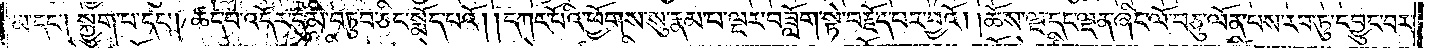མ་དང༌། སྐྱུག་པ་དང༌། ཚད་པ་འདོར་དུ་མི་བཏུབ་ཅིང་སྨོད་པའོ། །དཀར་པོའི་ཕྱོགས་སུ་རྣམ་པ་ལྔར་བཟློག་སྟེ་བརྗོད་པར་བྱའོ། །ཆོས་ལྔ་དང་ལྡན་ཞིང་ལོ་བཅུ་ལོན་པས་རབ་ཏུ་དབྱུང་བར་
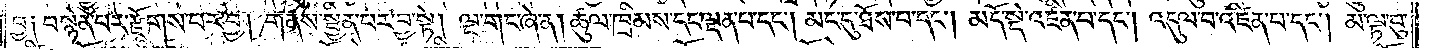བྱ༑ བསྙེན་པར་རྫོགས་པར་བྱ། གནས་སྦྱིན་པར་བྱ་སྟེ། ལྔ་གང་ཞེ་ན། ཚུལ་ཁྲིམས་དང་ལྡན་པ་དང༌། མང་དུ་ཐོས་པ་དང༌། མདོ་སྡེ་འཛིན་པ་དང༌། འདུལ་བ་འཛིན་པ་དང༌། མ་ལྟ་བུ་
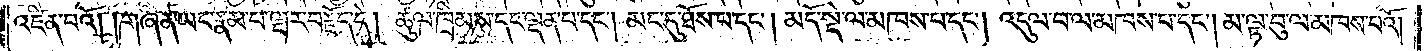འཛིན་པའོ། །གཞན་ཡང་རྣམ་པ་ལྔར་བརྗོད་དེ། ཚུལ་ཁྲིམས་དང་ལྡན་པ་དང༌། མང་དུ་ཐོས་པ་དང༌། མདོ་སྡེ་ལ་མཁས་པ་དང༌། འདུལ་བ་ལ་མཁས་པ་དང༌། མ་ལྟ་བུ་ལ་མཁས་པའོ། །
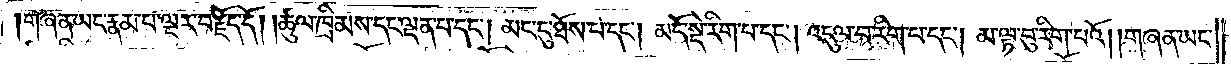གཞན་ཡང་རྣམ་པ་ལྔར་བརྗོད་དོ། །ཚུལ་ཁྲིམས་དང་ལྡན་པ་དང༌། མང་དུ་ཐོས་པ་དང༌། མདོ་སྡེ་རིག་པ་དང༌། འདུལ་བ་རིག་པ་དང༌། མ་ལྟ་བུ་རིག་པའོ། །གཞན་ཡང་
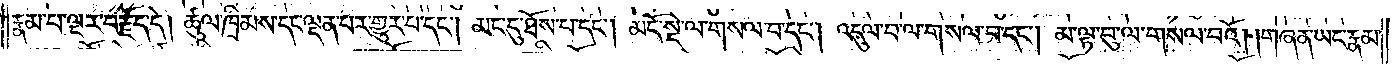རྣམ་པ་ལྔར་བརྗོད་དེ། ཚུལ་ཁྲིམས་དང་ལྡན་པར་གྱུར་པ་དང༌། མང་དུ་ཐོས་པ་དང༌། མདོ་སྡེ་ལ་གསལ་བ་དང༌། འདུལ་བ་ལ་གསལ་བ་དང༌། མ་ལྟ་བུ་ལ་གསལ་བའོ། །གཞན་ཡང་རྣམ་
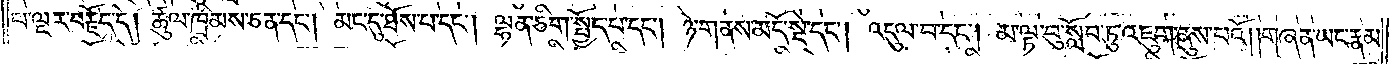པ་ལྔར་བརྗོད་དེ། ཚུལ་ཁྲིམས་ཅན་དང༌། མང་དུ་ཐོས་པ་དང༌། ལྷན་ཅིག་སྤྱོད་པ་དང༌། ཉེ་གནས་མདོ་སྡེ་དང༌། འདུལ་བ་དང༌། མ་ལྟ་བུ་སློབ་ཏུ་འཇུག་ནུས་པའོ། །གཞན་ཡང་རྣམ་
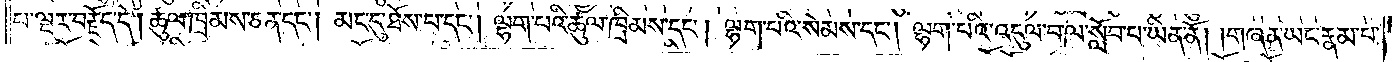པ་ལྔར་བརྗོད་དེ། ཚུལ་ཁྲིམས་ཅན་དང༌། མང་དུ་ཐོས་པ་དང༌། ལྷག་པའི་ཚུལ་ཁྲིམས་དང༌། ལྷག་པའི་སེམས་དང༌། ལྷག་པའི་འདུལ་བ་ལ་སློབ་པ་ཡིན་ནོ། །གཞན་ཡང་རྣམ་པ་
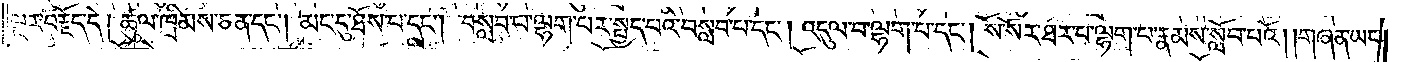ལྔར་བརྗོད་དེ། ཚུལ་ཁྲིམས་ཅན་དང༌། མང་དུ་ཐོས་པ་དང༌། བསླབ་པ་ལྷག་པར་སྤྱད་པའི་བསླབ་པ་དང༌། འདུལ་བ་ལྷག་པ་དང༌། སོ་སོར་ཐར་པ་ལྷག་པ་རྣམས་སློབ་པའོ། །གཞན་ཡང་
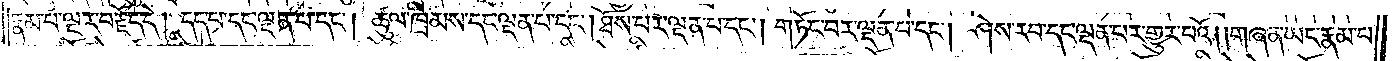རྣམ་པ་ལྔར་བརྗོད་དེ། དད་པ་དང་ལྡན་པ་དང༌། ཚུལ་ཁྲིམས་དང་ལྡན་པ་དང༌། ཐོས་པར་ལྡན་པ་དང༌། གཏོང་བར་ལྡན་པ་དང༌། ཤེས་རབ་དང་ལྡན་པར་གྱུར་པའོ། །གཞན་ཡང་རྣམ་པ་
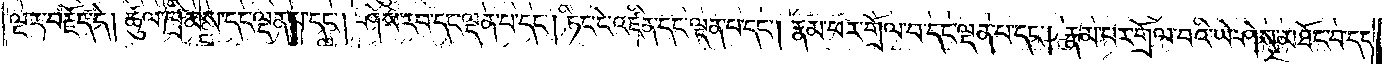ལྔར་བརྗོད་དེ། ཚུལ་ཁྲིམས་དང་ལྡན་པ་དང༌། ཤེས་རབ་དང་ལྡན་པ་དང༌། ཏིང་ངེ་འཛིན་དང་ལྡན་པ་དང༌། རྣམ་པར་གྲོལ་བ་དང་ལྡན་པ་དང༌། རྣམ་པར་གྲོལ་བའི་ཡེ་ཤེས་མཐོང་བ་དང་
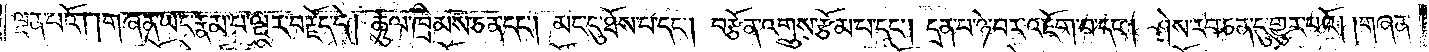ལྡན་པའོ། །གཞན་ཡང་རྣམ་པ་ལྔར་བརྗོད་དེ། ཚུལ་ཁྲིམས་ཅན་དང༌། མང་དུ་ཐོས་པ་དང༌། བརྩོན་འགྲུས་རྩོམ་པ་དང༌། དྲན་པ་ཉེ་བར་འཇོག་པ་དང༌། ཤེས་རབ་ཅན་དུ་གྱུར་པའོ། །གཞན་
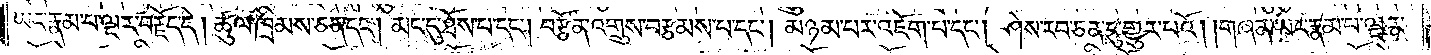ཡང་རྣམ་པ་ལྔར་བརྗོད་དེ། ཚུལ་ཁྲིམས་ཅན་དང༌། མང་དུ་ཐོས་པ་དང༌། བརྩོན་འགྲུས་བརྩམས་པ་དང༌། མཉམ་པར་འཇོག་པ་དང༌། ཤེས་རབ་ཅན་དུ་གྱུར་པའོ། །གཞན་ཡང་རྣམ་པ་ལྔར་
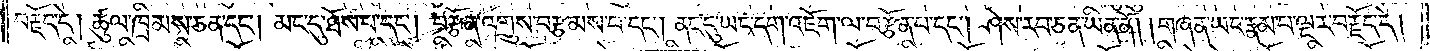བརྗོད་དེ། ཚུལ་ཁྲིམས་ཅན་དང༌། མང་དུ་ཐོས་པ་དང༌། བརྩོན་འགྲུས་བརྩམས་པ་དང༌། ནང་དུ་ཡང་དག་འཇོག་ལ་བརྩོན་པ་དང༌། ཤེས་རབ་ཅན་ཡིན་ནོ། །གཞན་ཡང་རྣམ་པ་ལྔར་བརྗོད་དེ། །
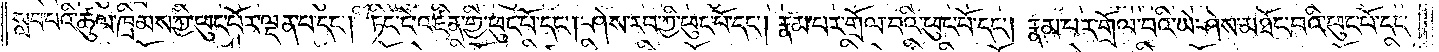སླབ་པའི་ཚུལ་ཁྲིམས་ཀྱི་ཕུང་པོར་ལྡན་པ་དང༌། ཏིང་ངེ་འཛིན་གྱི་ཕུང་པོ་དང༌། ཤེས་རབ་ཀྱི་ཕུང་པོ་དང༌། རྣམ་པར་གྲོལ་བའི་ཕུང་པོ་དང༌། རྣམ་པར་གྲོལ་བའི་ཡེ་ཤེས་མཐོང་བའི་ཕུང་པོ་དང་
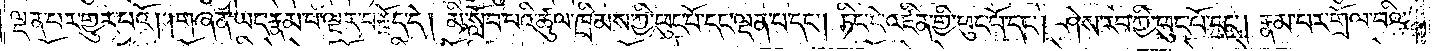ལྡན་པར་གྱུར་པའོ། །གཞན་ཡང་རྣམ་པ་ལྔར་བརྗོད་དེ། མི་སློབ་པའི་ཚུལ་ཁྲིམས་ཀྱི་ཕུང་པོ་དང་ལྡན་པ་དང༌། ཏིང་ངེ་འཛིན་གྱི་ཕུང་པོ་དང༌། ཤེས་རབ་ཀྱི་ཕུང་པོ་དང༌། རྣམ་པར་གྲོལ་བའི་
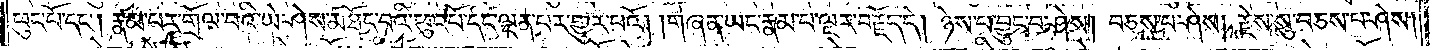ཕུང་པོ་དང༌། རྣམ་པར་གྲོལ་བའི་ཡེ་ཤེས་མཐོང་བའི་ཕུང་པོ་དང་ལྡན་པར་གྱུར་པའོ། །གཞན་ཡང་རྣམ་པ་ལྔར་བརྗོད་དེ། ཉེས་པ་བྱུང་བ་ཤེས། བཅས་པ་ཤེས། རྗེས་སུ་བཅས་པ་ཤེས།
